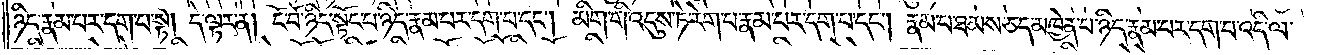ཉིད་རྣམ་པར་དག་པ་སྟེ། དེ་ལྟར་ན། ངོ་བོ་ཉིད་སྟོང་པ་ཉིད་རྣམ་པར་དག་པ་དང༌། མིག་གི་འདུས་ཏེ་རེག་པ་རྣམ་པར་དག་པ་དང༌། རྣམ་པ་ཐམས་ཅད་མཁྱེན་པ་ཉིད་རྣམ་པར་དག་པ་འདི་ལ་
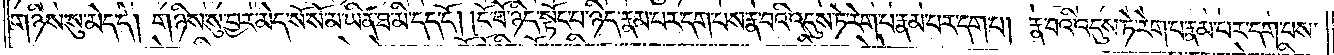གཉིས་སུ་མེད་དེ། གཉིས་སུ་བྱར་མེད་སོ་སོ་མ་ཡིན་ཐ་མི་དད་དོ། །ངོ་བོ་ཉིད་སྟོང་པ་ཉིད་རྣམ་པར་དག་པས་རྣ་བའི་འདུས་ཏེ་རེག་པ་རྣམ་པར་དག་པ། རྣ་བའི་འདུས་ཏེ་རེག་པ་རྣམ་པར་དག་པས་
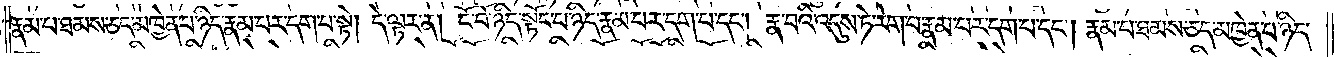རྣམ་པ་ཐམས་ཅད་མཁྱེན་པ་ཉིད་རྣམ་པར་དག་པ་སྟེ། དེ་ལྟར་ན། ངོ་བོ་ཉིད་སྟོང་པ་ཉིད་རྣམ་པར་དག་པ་དང༌། རྣ་བའི་འདུས་ཏེ་རེག་པ་རྣམ་པར་དག་པ་དང༌། རྣམ་པ་ཐམས་ཅད་མཁྱེན་པ་ཉིད་
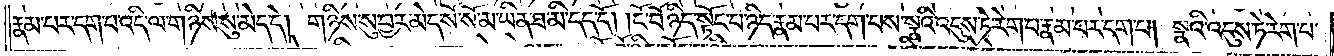རྣམ་པར་དག་པ་འདི་ལ་གཉིས་སུ་མེད་དེ། གཉིས་སུ་བྱར་མེད་སོ་སོ་མ་ཡིན་ཐ་མི་དད་དོ། །ངོ་བོ་ཉིད་སྟོང་པ་ཉིད་རྣམ་པར་དག་པས་སྣའི་འདུས་ཏེ་རེག་པ་རྣམ་པར་དག་པ། སྣའི་འདུས་ཏེ་རེག་པ་
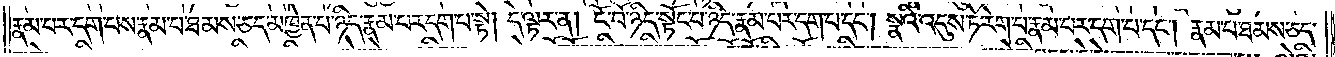རྣམ་པར་དག་པས་རྣམ་པ་ཐམས་ཅད་མཁྱེན་པ་ཉིད་རྣམ་པར་དག་པ་སྟེ། དེ་ལྟར་ན། ངོ་བོ་ཉིད་སྟོང་པ་ཉིད་རྣམ་པར་དག་པ་དང༌། སྣའི་འདུས་ཏེ་རེག་པ་རྣམ་པར་དག་པ་དང༌། རྣམ་པ་ཐམས་ཅད་
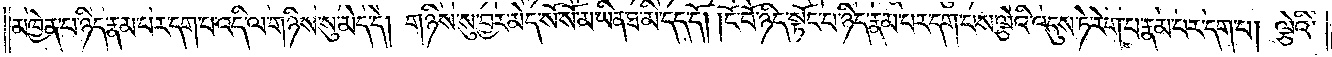མཁྱེན་པ་ཉིད་རྣམ་པར་དག་པ་འདི་ལ་གཉིས་སུ་མེད་དེ། གཉིས་སུ་བྱར་མེད་སོ་སོ་མ་ཡིན་ཐ་མི་དད་དོ། །ངོ་བོ་ཉིད་སྟོང་པ་ཉིད་རྣམ་པར་དག་པས་ལྕེའི་འདུས་ཏེ་རེག་པ་རྣམ་པར་དག་པ། ལྕེའི་
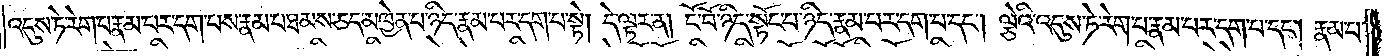འདུས་ཏེ་རེག་པ་རྣམ་པར་དག་པས་རྣམ་པ་ཐམས་ཅད་མཁྱེན་པ་ཉིད་རྣམ་པར་དག་པ་སྟེ། དེ་ལྟར་ན། ངོ་བོ་ཉིད་སྟོང་པ་ཉིད་རྣམ་པར་དག་པ་དང༌། ལྕེའི་འདུས་ཏེ་རེག་པ་རྣམ་པར་དག་པ་དང༌། རྣམ་པ་
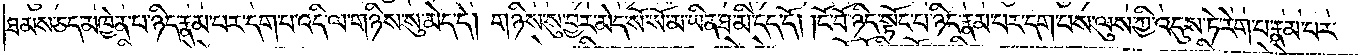ཐམས་ཅད་མཁྱེན་པ་ཉིད་རྣམ་པར་དག་པ་འདི་ལ་གཉིས་སུ་མེད་དེ། གཉིས་སུ་བྱར་མེད་སོ་སོ་མ་ཡིན་ཐ་མི་དད་དོ། །ངོ་བོ་ཉིད་སྟོང་པ་ཉིད་རྣམ་པར་དག་པས་ལུས་ཀྱི་འདུས་ཏེ་རེག་པ་རྣམ་པར་
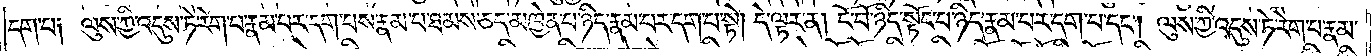དག་པ༑ ལུས་ཀྱི་འདུས་ཏེ་རེག་པ་རྣམ་པར་དག་པས་རྣམ་པ་ཐམས་ཅད་མཁྱེན་པ་ཉིད་རྣམ་པར་དག་པ་སྟེ། དེ་ལྟར་ན། ངོ་བོ་ཉིད་སྟོང་པ་ཉིད་རྣམ་པར་དག་པ་དང༌། ལུས་ཀྱི་འདུས་ཏེ་རེག་པ་རྣམ་
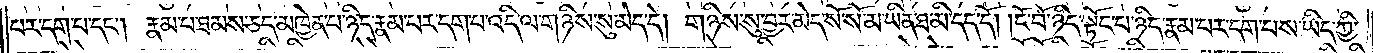པར་དག་པ་དང༌། རྣམ་པ་ཐམས་ཅད་མཁྱེན་པ་ཉིད་རྣམ་པར་དག་པ་འདི་ལ་གཉིས་སུ་མེད་དེ། གཉིས་སུ་བྱར་མེད་སོ་སོ་མ་ཡིན་ཐ་མི་དད་དོ། །ངོ་བོ་ཉིད་སྟོང་པ་ཉིད་རྣམ་པར་དག་པས་ཡིད་ཀྱི་
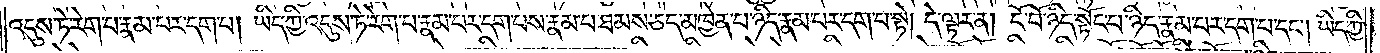འདུས་ཏེ་རེག་པ་རྣམ་པར་དག་པ། ཡིད་ཀྱི་འདུས་ཏེ་རེག་པ་རྣམ་པར་དག་པས་རྣམ་པ་ཐམས་ཅད་མཁྱེན་པ་ཉིད་རྣམ་པར་དག་པ་སྟེ། དེ་ལྟར་ན། ངོ་བོ་ཉིད་སྟོང་པ་ཉིད་རྣམ་པར་དག་པ་དང༌། ཡིད་ཀྱི་
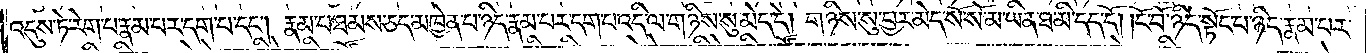འདུས་ཏེ་རེག་པ་རྣམ་པར་དག་པ་དང༌། རྣམ་པ་ཐམས་ཅད་མཁྱེན་པ་ཉིད་རྣམ་པར་དག་པ་འདི་ལ་གཉིས་སུ་མེད་དེ། གཉིས་སུ་བྱར་མེད་སོ་སོ་མ་ཡིན་ཐ་མི་དད་དོ། །ངོ་བོ་ཉིད་སྟོང་པ་ཉིད་རྣམ་པར་
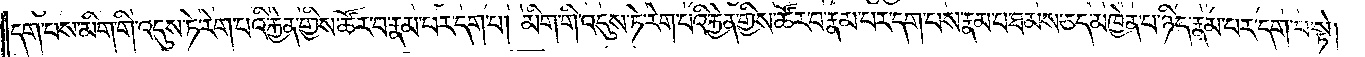དག་པས་མིག་གི་འདུས་ཏེ་རེག་པའི་རྐྱེན་གྱིས་ཚོར་བ་རྣམ་པར་དག་པ། མིག་གི་འདུས་ཏེ་རེག་པའི་རྐྱེན་གྱིས་ཚོར་བ་རྣམ་པར་དག་པས་རྣམ་པ་ཐམས་ཅད་མཁྱེན་པ་ཉིད་རྣམ་པར་དག་པ་སྟེ།
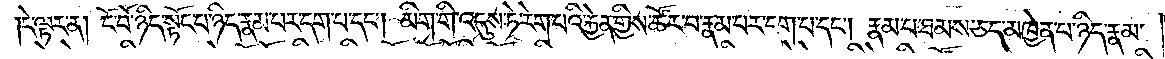དེ་ལྟར་ན། ངོ་བོ་ཉིད་རྣམ་པར་དག་པ་དང༌། མིག་གི་འདུས་ཏེ་རེག་པའི་རྐྱེན་གྱིས་ཚོར་བ་རྣམ་པར་དག་པ་དང༌། རྣམ་པ་ཐམས་ཅད་མཁྱེན་པ་ཉིད་རྣམ་
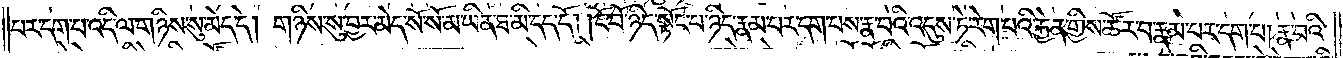པར་དག་པ་འདི་ལ་གཉིས་སུ་མེད་དེ། གཉིས་སུ་བྱར་མེད་སོ་སོ་མ་ཡིན་ཐ་མི་དད་དོ། །ངོ་བོ་ཉིད་སྟོང་པ་ཉིད་རྣམ་པར་དག་པས་རྣ་བའི་འདུས་ཏེ་རེག་པའི་རྐྱེན་གྱིས་ཚོར་བ་རྣམ་པར་དག་པ། རྣ་བའི་
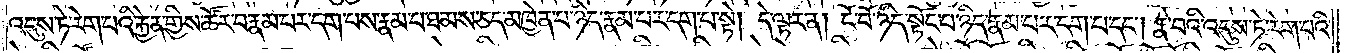འདུས་ཏེ་རེག་པའི་རྐྱེན་གྱིས་ཚོར་བ་རྣམ་པར་དག་པས་རྣམ་པ་ཐམས་ཅད་མཁྱེན་པ་ཉིད་རྣམ་པར་དག་པ་སྟེ། དེ་ལྟར་ན། ངོ་བོ་ཉིད་སྟོང་པ་ཉིད་རྣམ་པར་དག་པ་དང༌། རྣ་བའི་འདུས་ཏེ་རེག་པའི་
